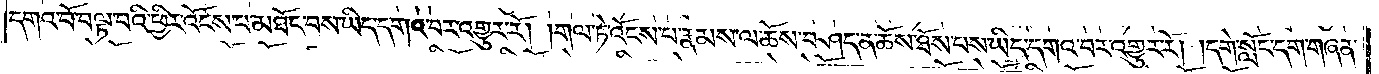དགའ་བོ་བལྟ་བའི་ཕྱིར་འོངས་པ་མཐོང་བས་ཡིད་དགའ་བར་འགྱུར་རོ། །གལ་ཏེ་འོངས་པ་རྣམས་ལ་ཆོས་བཤད་ན་ཆོས་ཐོས་པས་ཡིད་དགའ་བར་འགྱུར་རོ། །དགེ་སློང་དག་གཞན་
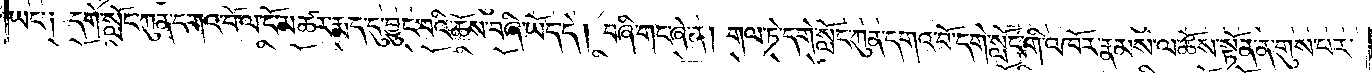ཡང་༑ དགེ་སློང་ཀུན་དགའ་བོ་ལ་ངོ་མཚར་རྨད་དུ་བྱུང་བའི་ཆོས་བཞི་ཡོད་དེ། བཞི་གང་ཞེ་ན། གལ་ཏེ་དགེ་སློང་ཀུན་དགའ་བོ་དགེ་སློང་གི་འཁོར་རྣམས་ལ་ཆོས་སྟོན་ན་གུས་པར་
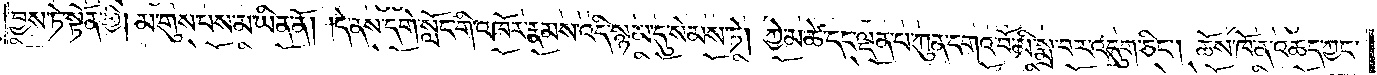བྱས་ཏེ་སྟོན་གྱི། མ་གུས་པས་མ་ཡིན་ནོ། །དེ་ནས་དགེ་སློང་གི་འཁོར་རྣམས་འདི་སྙམ་དུ་སེམས་ཏེ། ཀྱེ་མ་ཚེ་དང་ལྡན་པ་ཀུན་དགའ་བོ་མི་སྨྲ་བར་འདུག་ཅིང༌། ཆོས་ཁོ་ན་འཆད་ཀྱང་
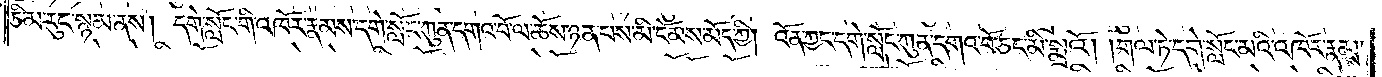ཅི་མ་རུང་སྙམ་ནས། དགེ་སློང་གི་འཁོར་རྣམས་དགེ་སློང་ཀུན་དགའ་བོ་ལ་ཆོས་ཉན་པས་མི་ངོམས་མོད་ཀྱི། འོན་ཀྱང་དགེ་སློང་ཀུན་དགའ་བོ་ཅང་མི་སྨྲའོ། །གལ་ཏེ་དགེ་སློང་མའི་འཁོར་རྣམས་
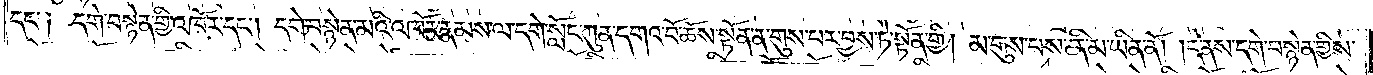དང་༑ དགེ་བསྙེན་གྱི་འཁོར་དང༌། དགེ་བསྙེན་མའི་འཁོར་རྣམས་ལ་དགེ་སློང་ཀུན་དགའ་བོ་ཆོས་སྟོན་ན་གུས་པར་བྱས་ཏེ་སྟོན་གྱི། མ་གུས་པས་ནི་མ་ཡིན་ནོ། །དེ་ནས་དགེ་བསྙེན་གྱིས་
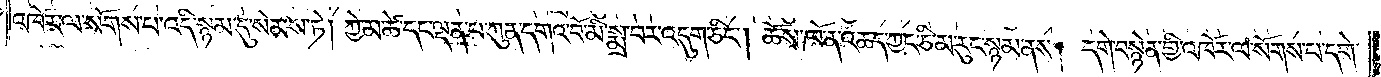འཁོར་ལ་སོགས་པ་འདི་སྙམ་དུ་སེམས་ཏེ། ཀྱེ་མ་ཚེ་དང་ལྡན་པ་ཀུན་དགའ་བོ་མི་སྨྲ་བར་འདུག་ཅིང༌། ཆོས་ཁོ་ན་འཆད་ཀྱང་ཅི་མ་རུང་སྙམ་ནས། དགེ་བསྙེན་གྱི་འཁོར་ལ་སོགས་པ་དགེ་
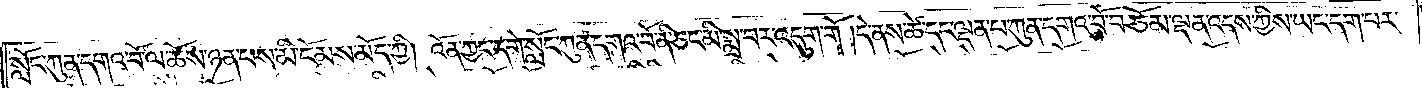སློང་ཀུན་དགའ་བོ་ལ་ཆོས་ཉན་པས་མི་ངོམས་མོད་ཀྱི། འོན་ཀྱང་དགེ་སློང་ཀུན་དགའ་བོ་ནི་ཅང་མི་སྨྲ་བར་འདུག་གོ །དེ་ནས་ཚེ་དང་ལྡན་པ་ཀུན་དགའ་བོ་བཅོམ་ལྡན་འདས་ཀྱིས་ཡང་དག་པར་
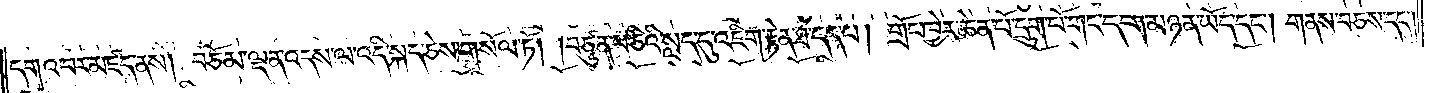དགའ་བར་མཛད་ནས། བཅོམ་ལྡན་འདས་ལ་འདི་སྐད་ཅེས་གསོལ་ཏོ། །བཙུན་པ་ཅིའི་སླད་དུ་འཇིག་རྟེན་ཐ་དད་པ། གྲོང་ཁྱེར་ཆེན་པོ་དྲུག་པོ་གང་དག་མཉན་ཡོད་དང༌། གནས་བཅས་དང༌།
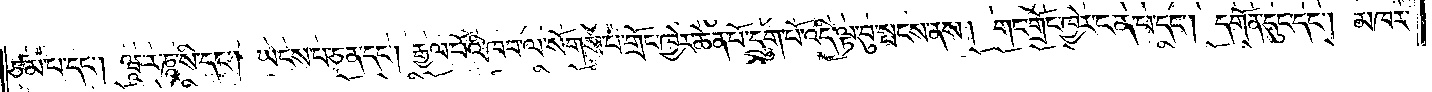ཙམ་པ་དང༌། ཝཱ་ར་ཎཱ་སི་དང༌། ཡངས་པ་ཅན་དང༌། རྒྱལ་པོའི་ཁབ་ལ་སོགས་པ་གྲོང་ཁྱེར་ཆེན་པོ་དྲུག་པོ་འདི་ལྟ་བུ་སྤངས་ནས། གང་གྲོང་ཁྱེར་ངན་པ་དང༌། དགོན་དུང་དང༌། མཁར་
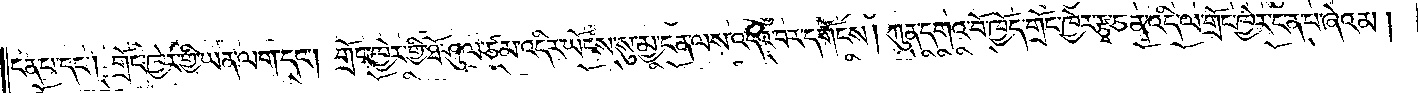ངན་པ་དང༌། གྲོང་ཁྱེར་གྱི་ཡན་ལག་དང༌། གྲོང་ཁྱེར་གྱི་ཐོ་ཤུལ་ཙམ་འདིར་ཡོངས་སུ་མྱ་ངན་ལས་འདའ་བར་དགོངས། ཀུན་དགའ་བོ་ཁྱོད་གྲོང་ཁྱེར་རྩྭ་ཅན་འདི་ལ་གྲོང་ཁྱེར་ངན་པ་ཞེའམ།
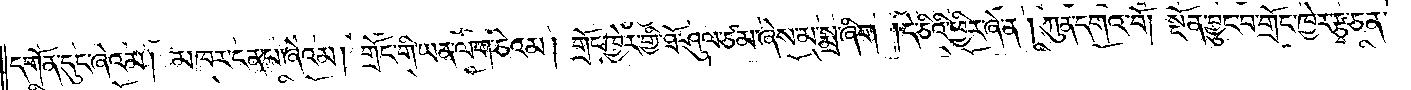དགོན་དུང་ཞེའམ། མཁར་ངན་པ་ཞེའམ། གྲོང་གི་ཡན་ལག་ཅེའམ། གྲོང་ཁྱེར་གྱི་ཐོ་ཤུལ་ཙམ་ཞེས་མ་སྨྲ་ཞིག །དེ་ཅིའི་ཕྱིར་ཞེ་ན། ཀུན་དགའ་བོ། སྔོན་བྱུང་བ་གྲོང་ཁྱེར་རྩྭ་ཅན་
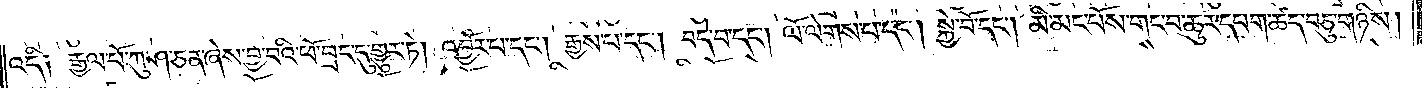འདི༑ རྒྱལ་པོ་ཀུ་ཤ་ཅན་ཞེས་བྱ་བའི་ཕོ་བྲང་དུ་གྱུར་ཏེ། འབྱོར་པ་དང༌། རྒྱས་པ་དང༌། བདེ་བ་དང༌། ལོ་ལེགས་པ་དང༌། སྐྱེ་བོ་དང༌། མི་མང་པོས་གང་བ་ཆུར་དཔག་ཚད་བཅུ་གཉིས།
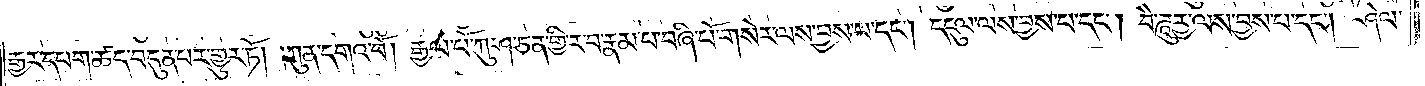རྒྱར་དཔག་ཚད་བདུན་པར་གྱུར་ཏོ། །ཀུན་དགའ་བོ། རྒྱལ་པོ་ཀུ་ཤ་ཅན་གྱི་ར་བ་རྣམ་པ་བཞི་པོ་གསེར་ལས་བྱས་པ་དང༌། དངུལ་ལས་བྱས་བ་དང༌། བཻ་ཌཱུཪྻ་ལས་བྱས་པ་དང༌། ཤེལ་
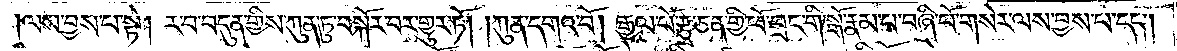ལས་བྱས་པ་སྟེ། ར་བ་བདུན་གྱིས་ཀུན་ཏུ་བསྐོར་བར་གྱུར་ཏོ། །ཀུན་དགའ་བོ། རྒྱལ་པོ་རྩྭ་ཅན་གྱི་ཕོ་བྲང་གི་སྒོ་རྣམ་པ་བཞི་པོ་གསེར་ལས་བྱས་པ་དང༌།དངུལ་ལས་བྱས་པ་དང༌།
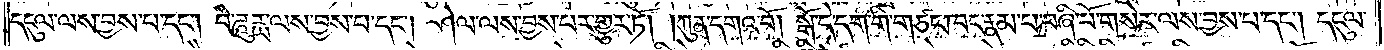དངུལ་ལས་བྱས་པ་དང༌། བཻ་ཌཱུརྻ་ལས་བྱས་པ་དང༌། ཤེལ་ལས་བྱས་པར་གྱུར་ཏོ། །ཀུན་དགའ་བོ། སྒོ་དེ་དག་གི་གཙང་ཁང་རྣམ་པ་བཞི་པོ་གསེར་ལས་བྱས་པ་དང༌། དངུལ་
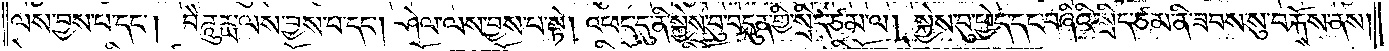ལས་བྱས་པ་དང༌། བཻཌཱུརྻ་ལས་བྱས་པ་དང་། ཤེལ་ལས་བྱས་པ་སྟེ། འཕང་དུ་ནི་སྐྱེས་བུ་བདུན་གྱི་སྲིད་ཙམ་ལ། སྐྱེས་བུ་ཕྱེད་དང་བཞིའི་སྲིད་ཙམ་ནི་ཟབས་སུ་བརྐོས་ནས།
